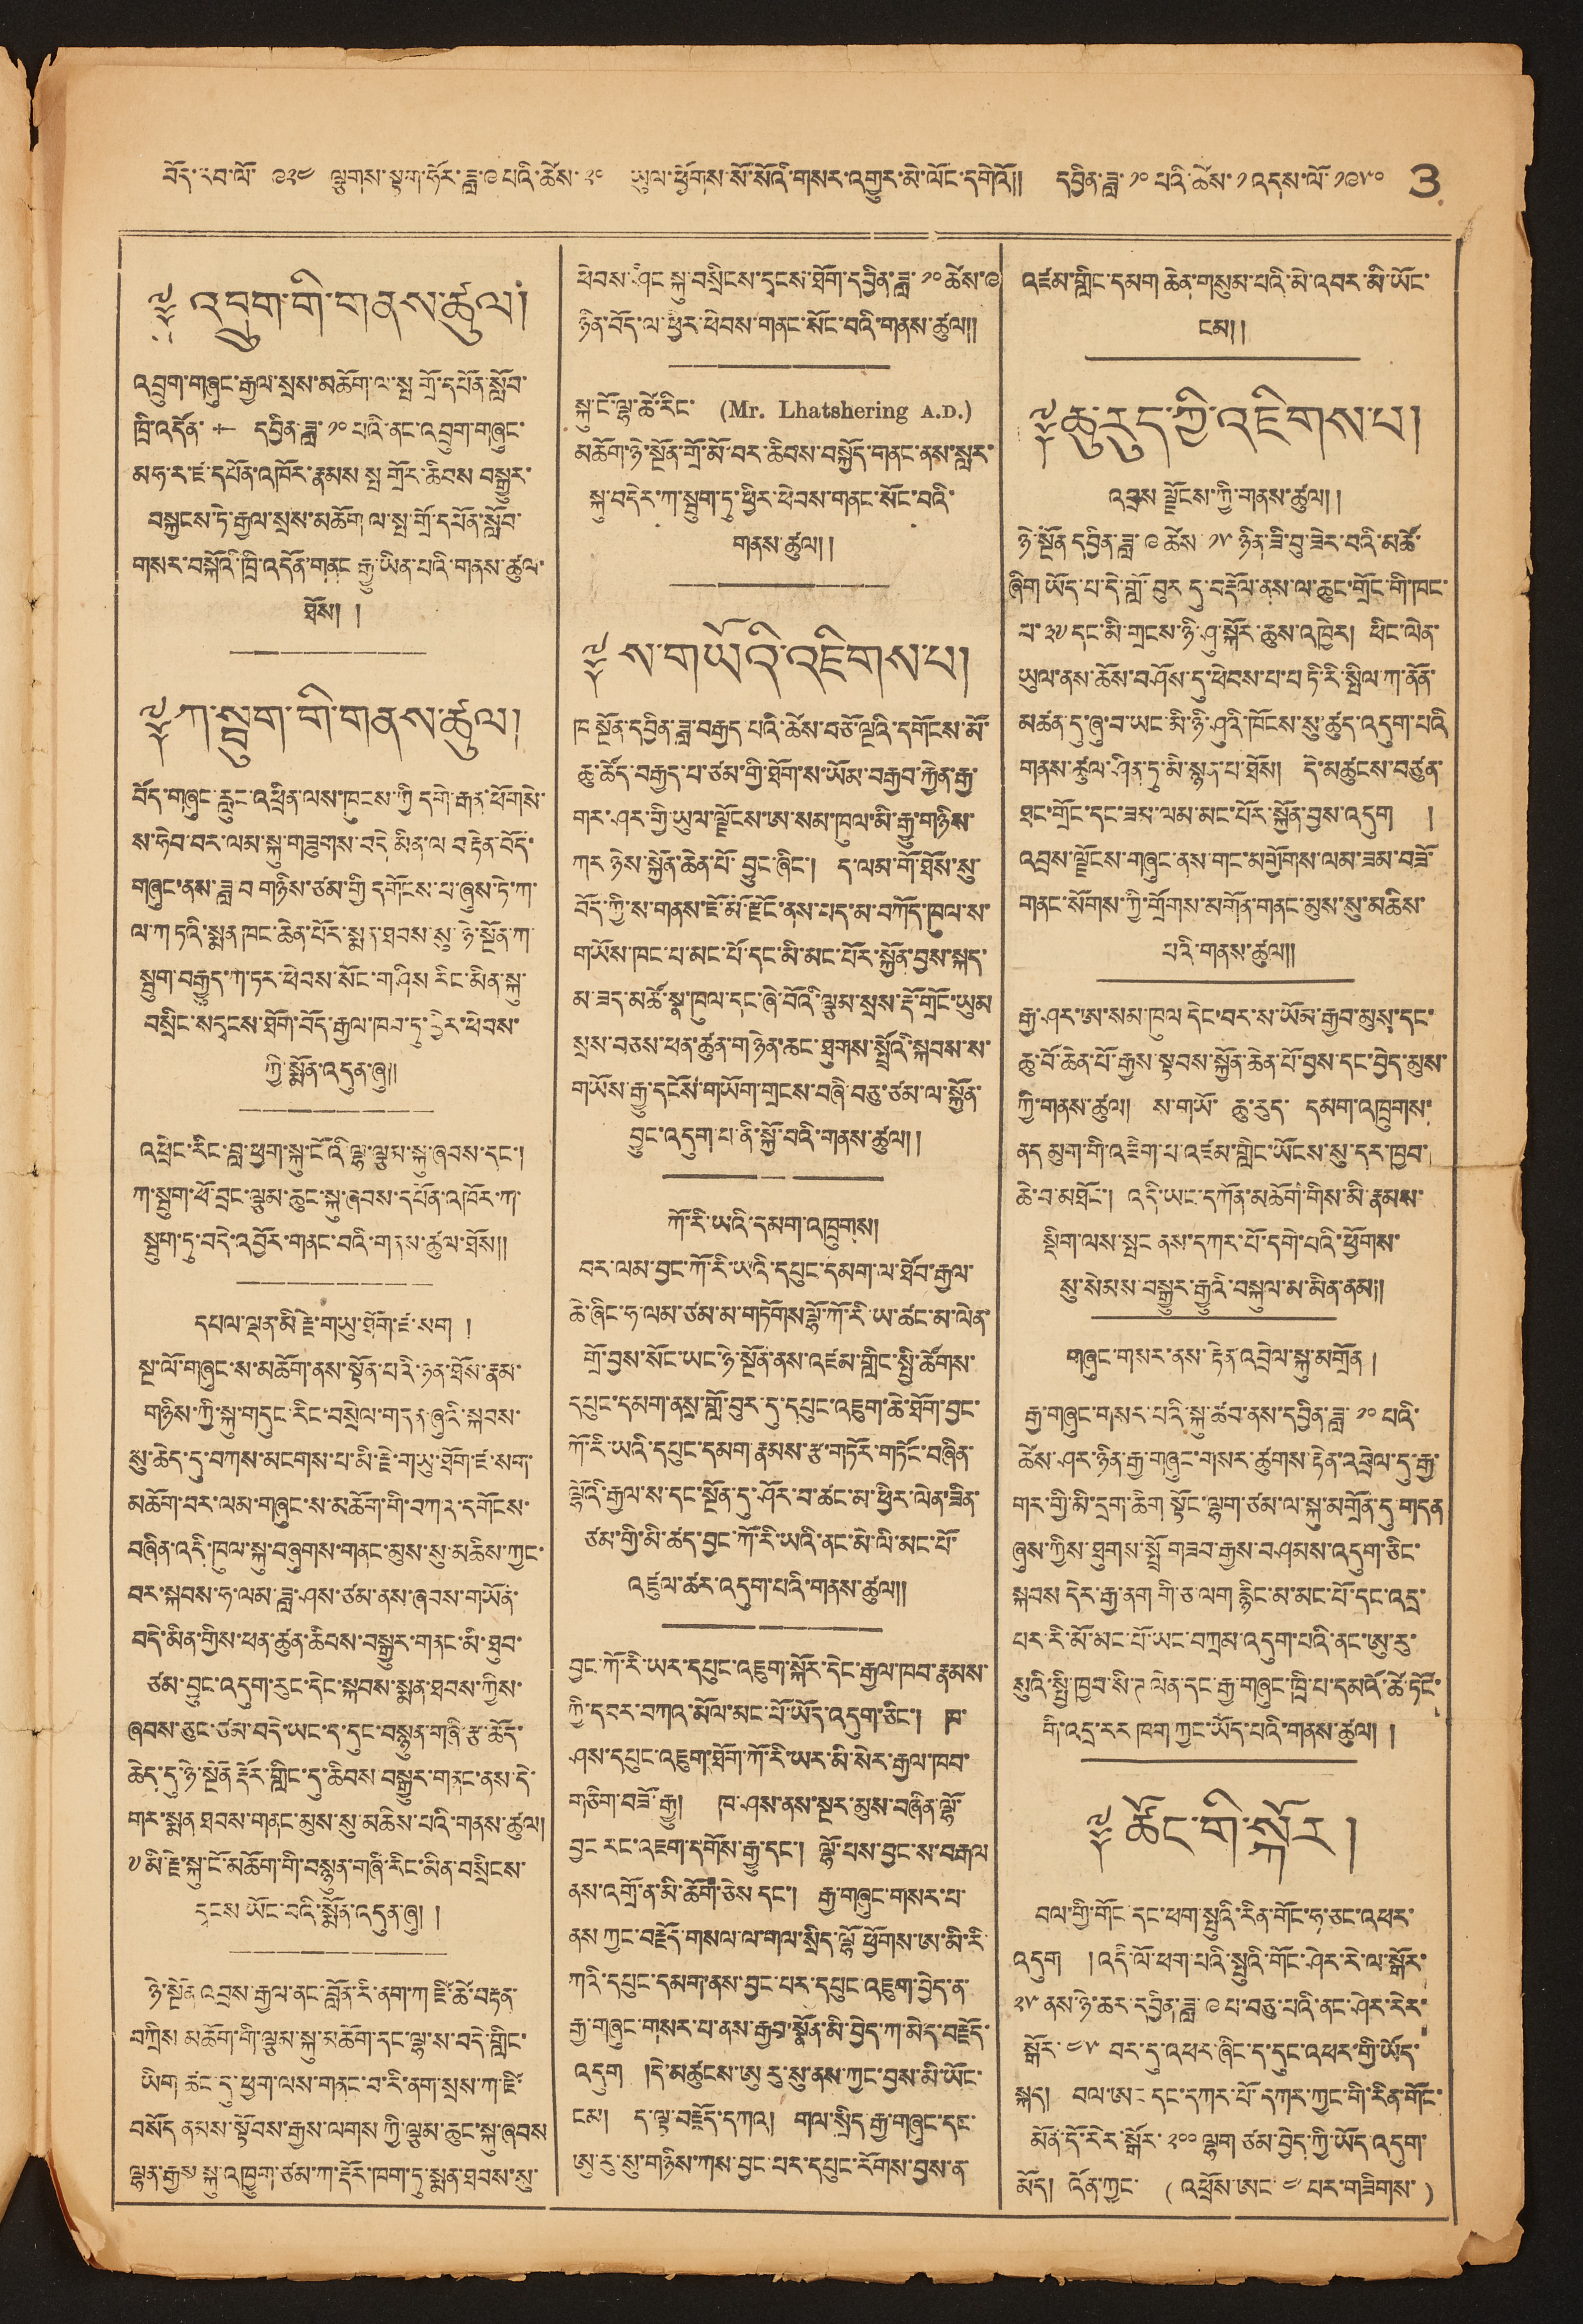བོད་རབ་ལོ་ ༩༢༤ ལྕགས་སྟག་ཧོར་ཟླ་ ༩ པའི་ཚེས་ ༢༠ ཡུལ་ཕྱོགས་སོ་སོའི་གསར་འགྱུར་མེ་ལོང་དགེའོ།། དབྱིན་ཟླ་ ༡༠ པའི་ཚེས་ ༡ འདས་ལོ་ ༡༩༥༠ 3
༈ འབྲུག་གི་གནས་ཚུལ།
འབྲུག་གཞུང་རྒྱལ་སྲས་མཆོག་ལ་སྤ གྲོ་དཔོན་སློབ་
ཁྲི་འདོན་ † དབྱིན་ཟླ་ ༡༠ པའི་ནང་འབྲུག་གཞུང་
མཧ་ར་ཛ་དཔོན་འཁོར་རྣམས སྤ གྲོར་ཆིབས བསྒྱུར་
བསྐྱངས་ཏེ་རྒྱལ་སྲས་མཆོག ལ་སྤ་གྲོ་དཔོན་སློབ་
གསར་བསྐོའི་ཁྲི་འདོན་གནང རྒྱུ་ཡིན་པའི་གནས་ཚུལ་
ཐོས། །
༈ ཀ་སྦུག་གི་གནས་ཚུལ།
བོད་གཞུང་རླུང་འཕྲིན་ལས་ཁུངས་ཀྱི དགེ་རྒན་ཕོགསེ་
ས་ཧེབ་བར་ལན་སྐུ་གཟུགས་བདེ་མིན་ལ བརྟེན་བོད་
གཞུང་ནས་ཟླ་བ གཉིས་ཙམ་གྱི དགོངས་པ་ཞུས་ཏེ་ཀ་
ལ་ཀ ཏའི་སྨན ཁང་ཆེན་པོར་སྨན་ཐབས་སུ་ཉེ་སྔོན་ཀ་
སྦུག་བརྒྱུད་ཀ་ཏར་ཕེབས་སོང་གཤིས རིང་མིན་སྐུ་
བསྲིང་སདྭངས་ཐོག་བོད་རྒྱལ་ཁབ་ཏུ་ཕྱིར་ཕེབས་
ཀྱི་སྨོན་འདུན་ཞུ།།
འཕྲིན་རིང་བླ་ཕྱག་སྐུ་ངོའི་ལྷ་ལྕམ་སྐུ་ཞབས་དང་།
ཀ་སྦུག་ཕོ་བྲང་ལྕམ་ཆུང་སྐུ་ཞབས་དཔོན་འཁོར་ཀ་
སྦུག་ཏུ་བདེ་འབྱོར་གནང་བའི་གནས་ཚུལ་ཐོས༎
དཔལ་ལྡན་མི་རྗེ་གཡུ་ཐོག་ཛ་སག །
སྔ་ལོ་གཞུང་ས་མཆོག་ནས་སྟོན་པའི་ཉན་ཐོས་རྣམ་
གཉིས་ཀྱི་སྐུ་གདུང་རིང་བསྲེལ་གདན་ཞུའི་སྐབས་
སུ་ཆེད་དུ་བཀས་མངགས་པ་མི་རྗེ་གཡུ་ཐོག་ཛ་སག་
མཆོག་བར་ལམ་གཞུང་ས་མཆོག་གི་བཀའ་དགོངས་
བཞིན་འདི་ཁུལ་སྐུ་བཞུགས་གནང་མུས་སུ་མཆིས་ཀྱང་
བར་སྐབས་ཧ་ལམ་ཟླ་ཤས་ཙམ་ནས་ཞབས་གཡོན་
བདེ་མིན་གྱིས་ཕན་ཚུལ་ཆིབས་བསྒྱུར་གནང་མི་ཐུབ་
ཙམ་བྱུང་འདུག་རུང་དེང་སྐབས་སྨན་ཐབས་ཀྱིས་
ཞབས་ཅུང་ཙམ་བདེ་ཡང་ད་དུང་བསྙུན་གཞི་རྩ་ཆོད་
ཆེད་དུ་ཉེ་སྔོན རྡོར་གླིང་དུ་ཆིབས་བསྒྱུར་གནང་ནས་དེ་
གར་སྨན་ཐབས་གནང་མུས་སུ་མཆིས་པའི་གནས་ཚུལ།
༸མི་རྗེ་སྐུ་ངོ་མཆོག་གི་བསྙུན་གཞི་རིང་མིན་བསྲིངས་
དྭངས ཡོང་བའི་སྨོན་འདུན་ཞུ། །
ཉེ་སྔོན འབྲས་རྒྱལ་ནང་བློན་རི་ནག་ཀ ཛི་ཚེ་བརྟན་
བཀྲིས མཆོག་གི་ལྕམ་སྐུ་མཆོག་དང་ལྷ་ས་བདེ་གླིང་
ཡིག ཚང་དུ་ཕྱག་ལས་གནང་བ་རི་ནག་སྲས་ཀ་ཛི་
བསོད ནམས་སྟོབས་རྒྱས་ལགས ཀྱི་ལྕམ་ཆུང་སྐུ་ཞབས
ལྷན་རྒྱས སྐུ་འཁྱུག་ཙམ་ཀ་རྡོར་ཁག་ཏུ་སྨན་ཐབས་སུ་
ཕེབས་ཤིང སྐུ་བསྲེངས་དྭངས་ཐོག་དབྱིན་ཟླ་ ༡༠ ཚེས་ ༩
ཉིན་བོད་ལ་ཕྱིར་ཕེབས་གནང་སོང་བའི་གནས་ཚུལ༎
སྐུ་ངོ་ལྷ་ཚེ་རིང་ (Mr. Lhatshering A.D.)
མཆོག་ཉེ་སྔོན་གྲོ་མོ་བར་ཆིབས་བསྐྱོད་གནང་ནས་སླར་
སྐུ་བདེར་ཀ་སྦུག་ཏུ་ཕྱིར་ཕེབས་གནང་སོང་བའི་
གནས་ཚུལ།།
༈ ས་གཡོའི་འཇིགས་པ།
ཁ སྔོན་དབྱིན་ཟླ་བརྒྱད་པའི་ཚེས་བཅོ་ལྔའི་དགོངས་མོ་
ཆུ་ཚོད་བརྒྱད་པ་ཙམ་གྱི་ཐོག་ས་ཡོམ་བརྒྱབ་རྐྱེན་རྒྱ་
གར་ཤར་གྱི་ཡུལ་ལྗོངས་ཨ་སམ་ཁུལ་མི་རྒྱུ་གཉིས་
ཀར ཉེས་སྐྱོན་ཆེན་པོ་བྱུང་ཞིང་། ད་ལམ་གོ་ཐོས་སུ་
བོད་ཀྱི་ས་གནས་ཇོ་མོ་རྫོང་ནས་པད་མ་བཀོད་ཁུལ་ས་
གཡོས་ཁང་པ་མང་པོ་དང་མི་མང་པོར་སྐྱོན་བྱས་སྐད་
མ་ཟད་མཚོ་སྣ་ཁུལ་དང་ཞེ་བོའི་ལྕམ་སྲས་རྡོ་གྲོང་ཡུམ
སྲས་བཅས་ཕན་ཚུན་གཉེན་ཆང་ཐུགས་སྤྲོའི་སྐབས་ས་
གཡོས་རྒྱུ་དངོས་གཡོག་གྲངས་བཞི་བཅུ་ཙམ་ལ་སྐྱོན་
བྱུང་འདུག་པ་ནི་སྐྱི་བའི་གནས་ཚུལ།།
ཀོ་རི་ཡའི་དམག་འཁྲུགས།
བར་ལམ་བྱང་ཀོ་རི་ཡའི་དཔུང་དམག་ལ་ཐོབ་རྒྱལ་
ཆེ་ཞིང་ཧ་ལམ་ཙམ་མ་གཏོགས་ལྷོ་ཀོ་རི་ཡ་ཚང་མ་ལེན་
གྲོ་བྱས་སོང་ཡང་ཉེ་སྔོན་ནས་འཛམ་གླིང་སྤྱི་ཚོགས་
དཔུང་དམག་ནས་གློ་བུར་དུ་དཔུང་འཇུག་ཆེ་ཐོག་བྱང་
ཀོ་རི་ཡའི་དཔུང་དམག་རྣམས་རྩ་གཏོར་གཏོང་བཞིན་
ལྷོའི་རྒྱལ་ས་དང་སྔོན་དུ་ཤོར་བ་ཚང་མ་ཕྱིན་ལེན་ཟིན་
ཙམ་གྱི་མི་ཚད་བྱང་ཀོ་རི་ཡའི་ནང་མེ་ནི་མང་པོ་
འཛུལ་ཚར་འདུག་པའི་གནས་ཚུལ།།
བྱང་ཀོ་རི་ཡར་དཔུང་འཇུག་སྐོར་དེང་རྒྱལ་ཁབ་རྣམས་
ཀྱི་དབར་བཀའ་མོལ་མང་པོ་ཡོད་འདུག་ཅིང་། ཁ་
ཤས་དཔུང་འཇུག་ཐོག་ཀོ་རི་ཡར་མི་སེར་རྒྱལ་ཁབ་
གཅིག་བཟོ་རྒྱུ། ཁ་ཤས་ནས་སྔར་མུས་བཞིན་ལྷོ་
བྱང རང་འཇག་དགོས་རྒྱུ་དང་། ལྷོ་པས་བྱང་ས་བརྒལ
ནས་འགྲོ་ན་མི་ཆོག་ཅེས དང་། རྒྱ་གཞུང་གསར་པ་
ནས ཀྱང་བརྗོད་གསལ་ལ་གལ་སྲིད་ལྷོ ཕྱོགས་ཨ་མི་རི་
ཀའི་དཔུང་དམག་ནས་བྱང་པར་དཔུང་འཇུག་བྱེད་ན་
རྒྱ་གཞུང་གསར་པ་ནས་རྒྱབ་སྣོན་མི་བྱེད་ཀ་མེད་བརྗོད་
འདུག །དེ་མཚུངས་ཨུ་རུ་སུ་ནས་ཀྱང་བྱས་མི་ཡོང་
ངམ། ད་ལྟ་བརྗོད་དཀའ། གལ་སྲིད་རྒྱ་གཞུང་དང་
ཨུ་རུ་སུ་གཉིས་ཀས་བྱང་པར་དཔུང་རོགས་བྱས་ན་
འཛམ་གླིང་དམག ཆེན་གསུམ་པའི་མེ་འབར་མི་ཡོང་
ངམ༎
༈ ཆུ་རུད་ཀྱི་འཇིགས་པ།
འབྲས ལྗོངས་ཀྱི་གནས་ཚུལ།།
ཉེ་སྔོན དབྱིན་ཟླ་ ༩ ཚེས་ ༡༥ ཉིན་ཟི་བུ་ཟེར་བའི་མཚོ་
ཞིག ཡོད་པ་དེ་གློ་བུར དུ་བརྡོལ་ནས་ལ་ཆུང་གྲོང་གི་ཁང་
པ་ ༣༧ དང་མི་གྲངས་ཉི་ཤུ་སྐོར་ཆུས་འཁྱེར། ཕིང་ལེན་
ཡུལ་ནས་ཆོས་བཤོལ་དུ་ཕེབས་པ་པ ཏི་རི་སྤིལ་ཀ་ནོན་
མཚན་དུ་ཞུ་བ་ཡང་མི་ཉི་ཤུའི་ཁོངས་སུ་ཚུད་འདུག་པའི
གནས་ཚུལ་ཤིན་ཏུ་མི་སྙན་པ་ཐོས། དེ་མཚུངས་བཙུན་
ཐང་གྲོང་དང་ཟམ་ལམ་མང་པོར་སྐྱོན་བྱས་འདུག །
འབྲས་ལྗོངས་གཞུང་ནས་གང་མགྱོགས་ལམ་ཟམ་བཟོ་
གནང་སོགས་ཀྱི་གྲོགས་མགོན་གནང་མུས་སུ་མཆིས་
པའི་གནས་ཚུལ།།
རྒྱ་ཤར་ཨ་སམ་ཁུལ་དེང་བར་ས་ཡོམ་རྒྱབ་མུས་དང་
ཆུ་བོ་ཆེན་པོ་རྒྱས་སྟབས་སྐྱོན་ཆེན་པོ་བྱས་དང་བྱེད་མུས
ཀྱི་གནས་ཚུལ། ས་གཡོ་ ཆུ་རུད་ དམག་འཁྲུགས་
ནད མུག་གི་འཇིག་པ་འཛམ་གླིང་ཡོངས་སུ་དར་ཁྱབ་
ཆེ་བ་མཐོང་། འདི་ཡང་དཀོན་མཆོག་གིས་མི་རྣམས་
སྡིག་ལས་སྤང ནས་དཀར་པོ་དགེ་བའི་ཕྱོགས་
སུ་སེམས་བསྒྱུར་རྒྱུའི་བསྐུལ་མ་མིན་ནམ།།
གཞུང་གསལ་ནས་རྟེན་འབྲེལ་སྐུ་མགྲོན །
རྒྱ་གཞུང་གསར་པའི་སྐུ་ཚབ་ནས་དབྱིན་ཟླ་ ༡༠ པའི་
ཚེས་ཤར་ཉིན་རྒྱ་གཞུང་གསར་ཚུགས་རྟེན་འབྲེལ་དུ་རྒྱ་
གར་གྱི་མི་དྲག་ཆིག སྟོང་ལྷག་ཙམ་ལ་སྐུ་མགྲོན་དུ་གདན
ཞུས་ཀྱིས་ཐུགས་སྤྲོ གཟབ་རྒྱས་བཤམས་འདུག་ཅིང་
སྐབས དེར་རྒྱ་ནག་གི་ཅ་ལག་རྙིང་མ་མང་པོ་དང་འདྲ་
པར་རི་མོ་མང་པོ་ཡང་བཀྲམ་འདུག་པའི་ནང་ཨུ་རུ་
སུའི་སྤྱི་ཁྱབ་སི་ཊ་ལེན་དང་རྒྱ་གཞུང་ཁྲི་པ་དམའོ་ཚེ་ཏོང་
གི་འདྲ་རར ཁག ཀྱང་ཡོད་པའི་གནས་ཚུལ། །
༈ ཚོང་གི་སྐོར །
བལ་གྱི་གོང་དང་ཕག་སྤུའི་རིན་གོང་ཧ་ཅང་འཕར་
འདུག །འདི་ལོ་ཕག་པའི་སྤུའི་གོང་ཤེར་རེ་ལ་སྒོར་
༢༥ ནས་ཉེ་ཆར་དབྱིན་ཟླ་ ༩ པ་བཅུ་པའི་ནང་ཤེར་རེར་
སྒོར་ ༤༥ བར་དུ་འཕར་ཞིང་ད་དུང་འཕར་གྱི་ཡོད་
སྐད། བལ་ཨང་དང་དཀར་པོ་དཀར་ཀྱང་གི་རིན་གོང་
མོན་དོ་རེར་སྒོར་ ༢༠༠ ལྷག ཙམ་བྱེད་ཀྱི་ཡོད་འདུག་
མོད། འོན་ཀྱང་
( འཕྲོས་ཨང་ ༤ པར་གཟིགས་ )
